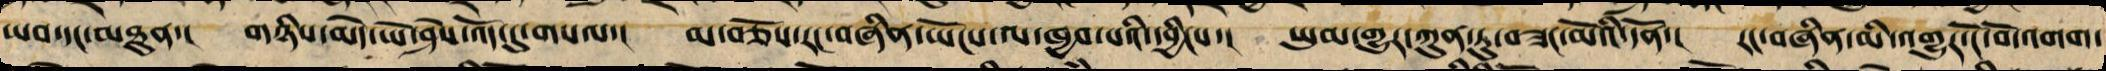ཡབ་དང་མཐུན་། གཉིས་མེད་ཡེ་ཤེས་འོད་དུ་གསལ་། མ་བཅོས་རང་བཞིན་ཡོངས་ལ་ཁྱབ་པའི་དབྱིངས་། ཡུམ་གྱུར་ཀུན་ཏུ་བཟང་མོའི་དོན་། རང་བཞིན་མི་འགྱུར་ངོ་བོ་འགག་
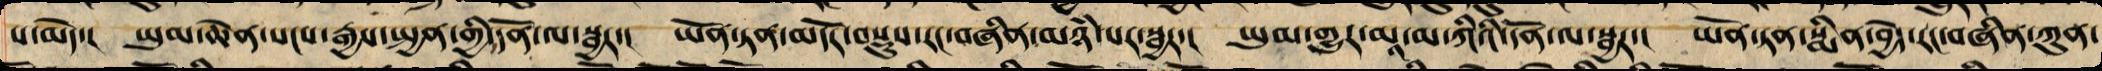པ་མེད་། ཡུམ་ཆེན་སངས་རྒྱས་སྤྱན་གྱི་དོན་ལ་སྦྱར་། ཡོན་ཏན་མདོར་བསྡུས་རང་བཞིན་མཉཾ་པར་སྦྱར་། ཡུམ་གྱུར་མཱ་མ་ཀིའི་དོན་ལ་སྦྱར་། ཡོན་ཏན་སྨིན་བྱེད་རང་བཞིན་ཀུན་
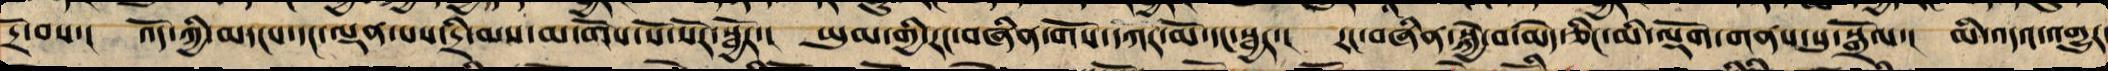དྲོ་བས་། འོད་ཀྱི་མདངས་དང་ལྡན་པས་དྲི་མས་མ་གོས་སོ་སོར་སྦྱོར་། ཡུམ་གྱི་རང་བཞིན་གོས་དཀར་མོ་དང་སྦྱར་། རང་བཞིན་སྐྱེ་བ་མེད་ཅིང་མི་ལྡོག་གནས་སུ་སྒྲོལ་། མི་འདའ་འགྱུར་
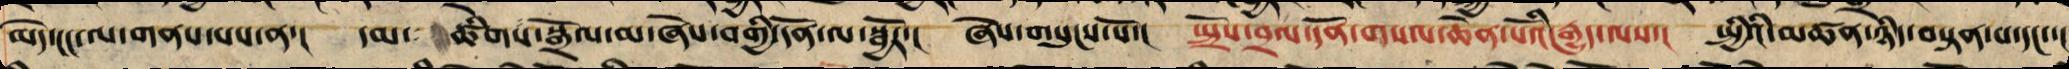མེད་ངང་ལ་གནས་པས་ན་། དམ་ ཚིགས་སྒྲོལ་མ་ཞེས་བགྱི་དོན་ལ་སྦྱོར་། ཞེས་གསུངས་སོ་། སྤྲོས་བྲལ་དོན་གསལ་ཆེན་པོའི་རྒྱུད་ལས་། སྤྱིའི་མཚན་ཉིད་བསྟན་པ་དང་་།
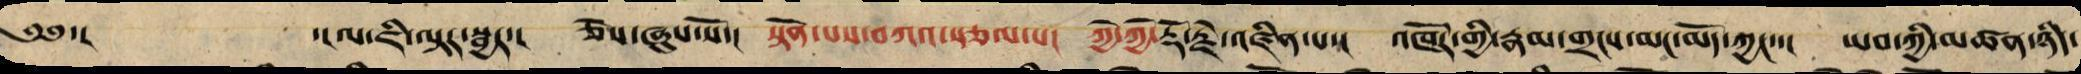༄༅་། ་།ལ་ཇི་ལྟར་སྦྱར་། ཅེས་ཞུས་སོ་། སྟོན་པས་བཀའ་སྩལ་པ། ཀྱེ་ཀྱེ་རྡོ་རྗེ་འཛིན་པ་། འཁོར་གྱི་རྣམ་གྲངས་མང་མོད་ཀྱང་་། ཡབ་ཀྱི་མཚན་ཉིད་
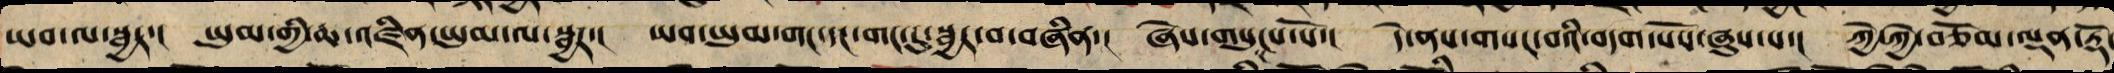ཡབ་ལ་སྦྱར་། ཡུམ་གྱི་ཆ་འཛིན་ཡུམ་ལ་སྦྱར་། ཡབ་ཡུམ་གང་དང་གང་དུ་སྦྱར་བ་བཞིན་། ཞེས་གསུངས་སོ་། དེ་ནས་གསང་བའི་བདག་པོས་ཞུས་པ་། ཀྱེ་ཀྱེ་བཅོམ་ལྡན་རྡོ་
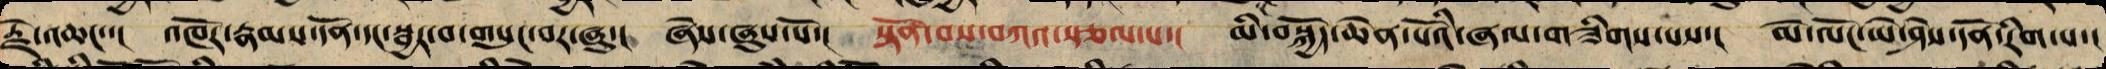རྗེ་འཆང་་། འཁོར་རྣམས་དོན་དང་སྦྱར་བ་གསུང་བར་ཞུ་། ཞེས་ཞུས་སོ་། སྟོན་བས་བཀའ་སྩལ་པ་། མི་བསྐྱོད་ཆེན་པོའི་ཞལ་གཟིགས་པས་། མེ་ལོང་ཡེ་ཤེས་དོན་རིག་པ་།
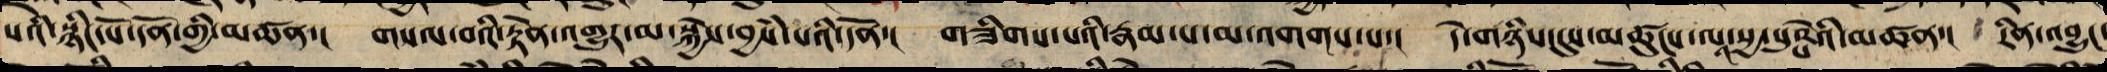སའི་སྙིང་པོ་དོན་གྱི་མཚན་། གསལ་བའི་རྟེན་འགྱུར་མ་སྐྱེས་བྱཾས་པའི་དོན་། གཟིགས་པའི་རྣམ་པ་མ་འགགས་པ་། དེ་གཉིས་དུས་མཚུངས་ལཱ་སྱ་པུཥྤེའི་མཚན་། རིན་འབྱུང་
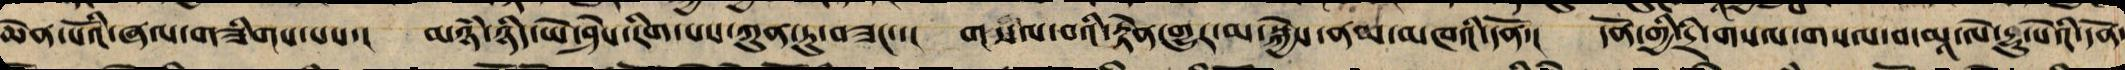ཆེན་པོའི་ཞལ་གཟིགས་པས་། མཉཾ་ཉིད་ཡེ་ཤེས་རིག་པ་ཀུན་ཏུ་བཟང་་། གསལ་བའི་རྟེན་གྱུར་མ་སྐྱེས་ནམ་མཁའི་དོན་། དོན་གྱི་དྲི་གསལ་བ་མཱ་ལེ་དྷུ་པེའི་དོན་
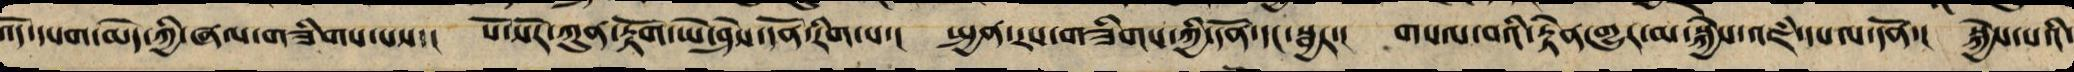འོད་དཔག་མེད་ཀྱི་ཞལ་གཟིགས་པས་། སོ་སོར་ཀུན་རྟོགས་ཡེ་ཤེས་དོན་རིག་པ་། སྤྱན་རས་གཟིགས་ཀྱི་དོན་དང་སྦྱར་། གསལ་བའི་རྟེན་གྱུར་མ་སྐྱེས་འཇཾ་དཔལ་དོན་། སྐྱེས་པའི་
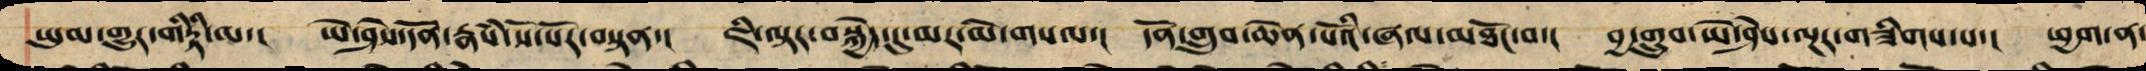ཡུམ་གྱུར་གིཏྟི་ལ་། ཡེ་ཤེས་དོན་རྣཾས་སོ་སོར་བསྟན་། ཇི་ལྟར་བསྐྱེད་དུ་མར་མེ་གསལ་། དོན་གྲུབ་ཆེན་པོའི་ཞལ་མཐོང་བ་། བྱ་གྲུབ་ཡེ་ཤེས་ལྔར་གཟིགས་པ་། ཕྱག་ན་
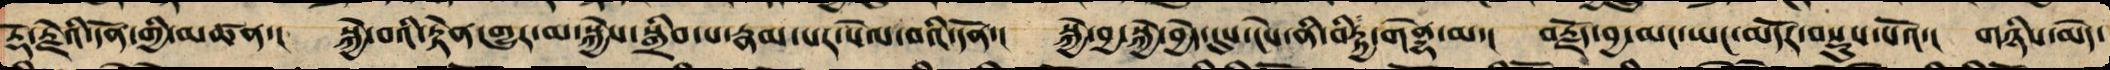རྡོ་རྗེའི་དོན་གྱི་མཚན་། སྐྱེ་བའི་རྟེན་གྱུར་མ་སྐྱེས་སྒྲིབ་པ་རྣམ་པར་སེལ་བའི་དོན་། སྐྱེ་བྱ་སྐྱེ་བྱེད་དུས་ངེས་ནི་བིཏྟྱ་གནྡྷེ་མ་། བརྗོད་བྱ་མང་ཡང་མདོར་བསྡུས་པའོ་། གཉིས་མེད་
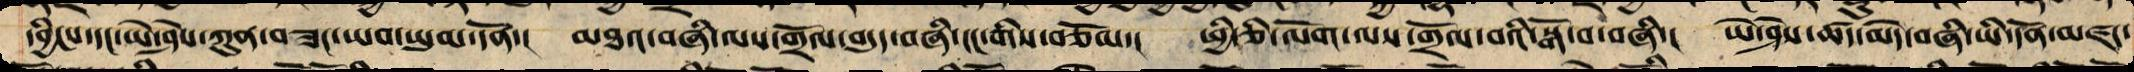དབྱིངས་དང་ཡེ་ཤེས་ཀུན་བཟང་ཡབ་ཡུམ་དོན་། མཐའ་བཞི་ལས་གྲོལ་བདུད་བཞི་ངང་གིས་བཅོམ་། ཕྱི་ཅི་ལོག་ལས་གྲོལ་བའི་སྒོ་བ་བཞི་། ཡེ་ཤེས་ཚད་མེད་བཞི་ཡི་དོན་མཛད་
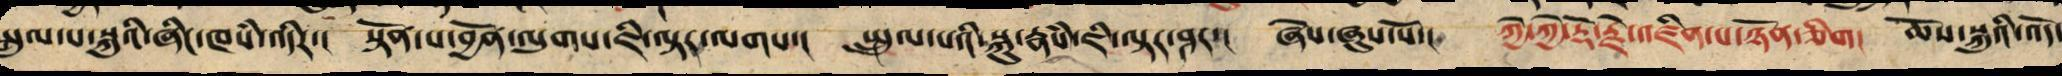སྤྲུལ་པ་སྐུའི་ཞིང་ཁཾས་འདིར་། སྟོན་པ་བྱོན་ལུགས་ཇི་ལྟར་ལགས་། སྤྲུལ་པའི་སྐུ་རྣཾས་ཇི་ལྟར་ཤར་། ཞེས་ཞུས་སོ་། ཀྱེ་ཀྱེ་རྡོ་རྗེ་འཛིན་པ་ཉོན་ཅིག། ཆོས་སྐུའི་འོད་
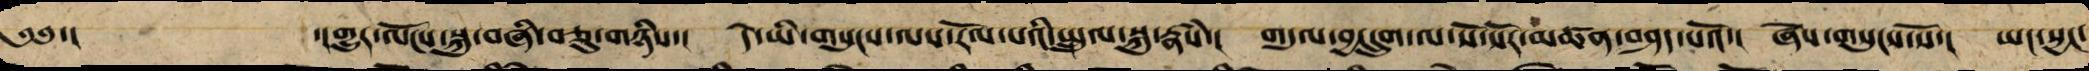༄༅་། ་།གྱུར་ལོངས་སྐུ་བཞི་བཅུ་གཉིས་། དེ་ཡི་གསུང་ལས་རོལ་པའི་སྤྲུལ་སྐུ་རྣཾས་། གདུལ་བྱྱ་དྲུག་ལ་སོ་སོར་མཚན་བཤད་པའོ་། ཞེས་གསུངས་སོ་། ཡང་སྱང་
